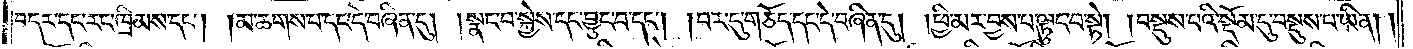བདར་དང་རང་ཁྲིམས་དང༌། །མ་ཆགས་པ་དང་དེ་བཞིན་དུ། །སྣང་བ་སྐྱེས་དང་བྱུང་བ་དང༌། །བར་དུ་གཅོད་དང་དེ་བཞིན་དུ། །ཕྱི་མར་བྱས་པ་ལྟུང་བ་སྟེ། །བསྡུས་པའི་སྡོམ་དུ་བསྡུས་པ་ཡིན། །
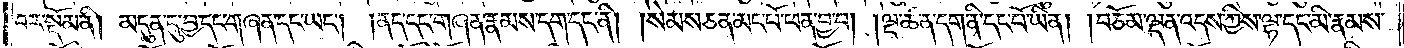བར་སྡོམ་ནི། མདུན་དུ་བྱ་དང་གཞན་དང་ཡང༌། །ནད་དང་གཞན་རྣམས་དག་དང་ནི། །སེམས་ཅན་མང་པོ་ཕན་བྱ་བ། །ལྔ་ཚན་དག་ནི་དང་པོ་ཡིན། །བཅོམ་ལྡན་འདས་ཀྱིས་ལྷ་དང་མི་རྣམས་
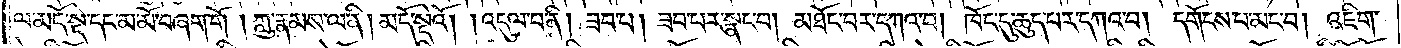ལ་མདོ་སྡེ་དང་མ་མོ་བཞག་གོ །ཀླུ་རྣམས་ལ་ནི། མདོ་སྡེའོ། །འདུལ་བ་ནི། ཟབ་པ། ཟབ་པར་སྣང་བ། མཐོང་བར་དཀའ་བ། ཁོང་དུ་ཆུད་པར་དཀའ་བ། དགོངས་པ་མང་བ། འཇིག་
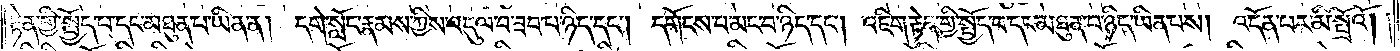རྟེན་གྱི་སྤྱོད་པ་དང་མཐུན་པ་ཡིན་ན། དགེ་སློང་རྣམས་ཀྱིས་འདུལ་བ་ཟབ་པ་ཉིད་དང༌། དགོངས་པ་མང་བ་ཉིད་དང༌། འཇིག་རྟེན་གྱི་སྤྱོད་པ་དང་མཐུན་པ་ཉིད་ཡིན་པས། འདོན་པར་མི་སྤྲོའོ། །
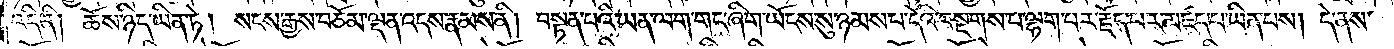འདི་ནི། ཆོས་ཉིད་ཡིན་ཏེ། སངས་རྒྱས་བཅོམ་ལྡན་འདས་རྣམས་ནི། བསྟན་པའི་ཡན་ལག་གང་ཞིག་ཡོངས་སུ་ཉམས་པ་དེའི་བསྔགས་པ་ལྷག་པར་རྗོད་པར་མཛད་པ་ཡིན་པས། དེ་ནས་
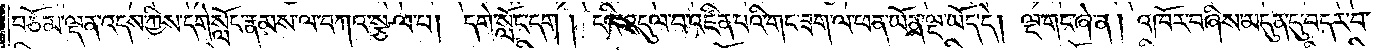བཅོམ་ལྡན་འདས་ཀྱིས་དགེ་སློང་རྣམས་ལ་བཀའ་སྩལ་པ། དགེ་སློང་དག །ངའི་འདུལ་བ་འཛིན་པའི་གང་ཟག་ལ་ཕན་ཡོན་ལྔ་ཡོད་དེ། ལྔ་གང་ཞེ་ན། འཁོར་བཞིས་མདུན་དུ་བདར་བ་
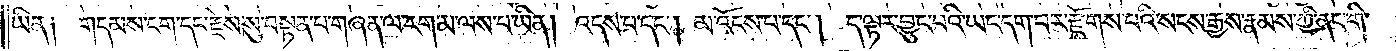ཡིན༑ གདམས་ངག་དང་རྗེས་སུ་བསྟན་པ་གཞན་ལ་རག་མ་ལས་པ་ཡིན། འདས་པ་དང༌། མ་འོངས་པ་དང༌། ད་ལྟར་བྱུང་བའི་ཡང་དག་པར་རྫོགས་པའི་སངས་རྒྱས་རྣམས་ཀྱི་ནང་གི་
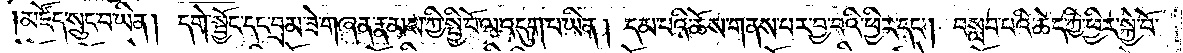མཛོད་སྲུང་བ་ཡིན། དགེ་སྦྱོང་དང་བྲམ་ཟེ་གཞན་རྣམས་ཀྱི་སྤྱི་བོ་ལ་འདུག་པ་ཡིན། དམ་པའི་ཆོས་གནས་པར་བྱ་བའི་ཕྱིར་དང༌། བསླབ་པའི་ཆེད་ཀྱི་ཕྱིར་སྐྱེ་བོ་
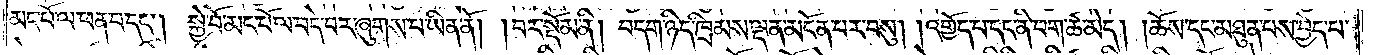མང་པོ་ལ་ཕན་པ་དང༌། སྐྱེ་བོ་མང་པོ་ལ་བདེ་བར་ཞུགས་པ་ཡིན་ནོ། །བར་སྡོམ་ནི། བདག་ཉིད་ཁྲིམས་ལྡན་མངོན་པར་བསུ། །འགྱོད་པ་དང་ནི་བག་ཚ་མེད། །ཆོས་དང་མཐུན་པས་བྱེད་པ་
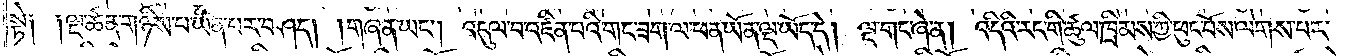སྟེ༑ ༑ལྔ་ཚན་གཉིས་པ་ཡིན་པར་བཤད། །གཞན་ཡང༌། འདུལ་བ་འཛིན་པའི་གང་ཟག་ལ་ཕན་ཡོན་ལྔ་ཡོད་དེ། ལྔ་གང་ཞེ་ན། འདིའི་རང་གི་ཚུལ་ཁྲིམས་ཀྱི་ཕུང་པོས་ལེགས་པར་
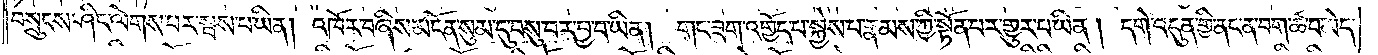བསྲུངས་ཤིང་ལེགས་པར་སྦས་པ་ཡིན། འཁོར་བཞིས་མངོན་སུམ་དུ་བསུ་བར་བྱ་བ་ཡིན། གང་ཟག་འགྱོད་པ་སྐྱེས་པ་རྣམས་ཀྱི་སྟོན་པར་གྱུར་པ་ཡིན། དགེ་འདུན་གྱི་ནང་ན་བག་ཚ་བ་མེད་
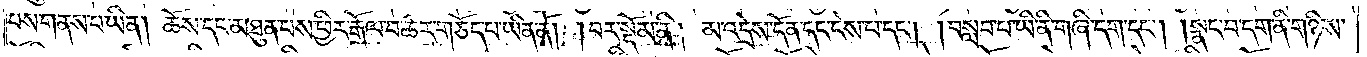པས་གནས་པ་ཡིན། ཆོས་དང་མཐུན་པས་ཕྱིར་རྒོལ་བ་ཚར་གཅོད་པ་ཡིན་ནོ། །བར་སྡོམ་ནི། མ་འདྲེས་དོན་དང་ངེས་པ་དང༌། །བསླབ་པ་ཡི་ནི་གཞི་དག་དང༌། །སྣང་བ་དག་ནི་གཉིས་
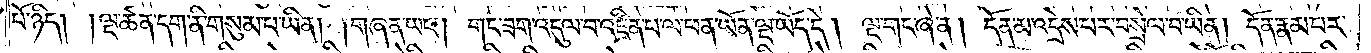པོ་ཉིད། །ལྔ་ཚན་དག་ནི་གསུམ་པ་ཡིན། །གཞན་ཡང༌། གང་ཟག་འདུལ་བ་འཛིན་པ་ལ་ཕན་ཡོན་ལྔ་ཡོད་དེ། ལྔ་གང་ཞེ་ན། དོན་མ་འདྲེས་པར་བསྲེལ་བ་ཡིན། དོན་རྣམ་པར་
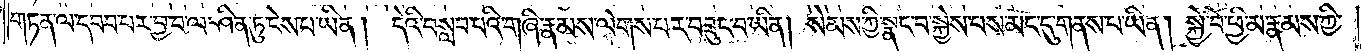གཏན་ལ་དབབ་པར་བྱ་བ་ལ་ཤིན་ཏུ་ངེས་པ་ཡིན། དེའི་བསླབ་པའི་གཞི་རྣམས་ལེགས་པར་བཟུང་བ་ཡིན། སེམས་ཀྱི་སྣང་བ་སྐྱེས་པས་མང་དུ་གནས་པ་ཡིན། སྐྱེ་བོ་ཕྱི་མ་རྣམས་ཀྱི་
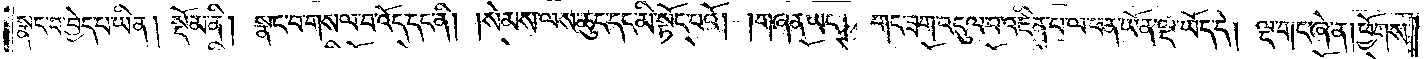སྣང་བ་བྱེད་པ་ཡིན། སྡོམ་ནི། སྣང་བ་གསལ་བ་འོད་དང་ནི། །སེམས་ལས་ཆུང་དང་མི་སྟོང་པའོ། །གཞན་ཡང༌། གང་ཟག་འདུལ་བ་འཛིན་པ་ལ་ཕན་ཡོན་ལྔ་ཡོད་དེ། ལྔ་གང་ཞེ་ན། ཕྱོགས་
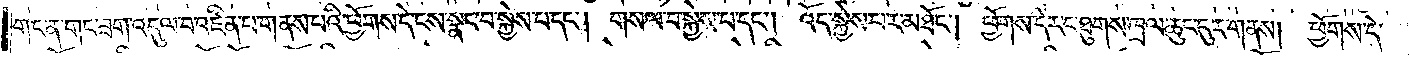གང་ན་གང་ཟག་འདུལ་བ་འཛིན་པ་གནས་པའི་ཕྱོགས་དེ་ངས་སྣང་བ་སྐྱེས་པ་དང༌། གསལ་བ་སྐྱེས་པ་དང༌། འོད་སྐྱེས་པར་མཐོང༌། ཕྱོགས་དེར་ང་ཐུགས་ཁྲལ་ཆུང་ངུར་གནས། ཕྱོགས་དེ་
